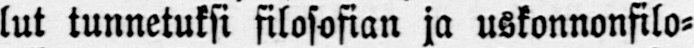lut tunnetuksi filosofian ja uskonnonfilo-
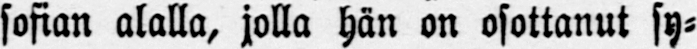sofian alalla, jolla hän on osottanut sy-
